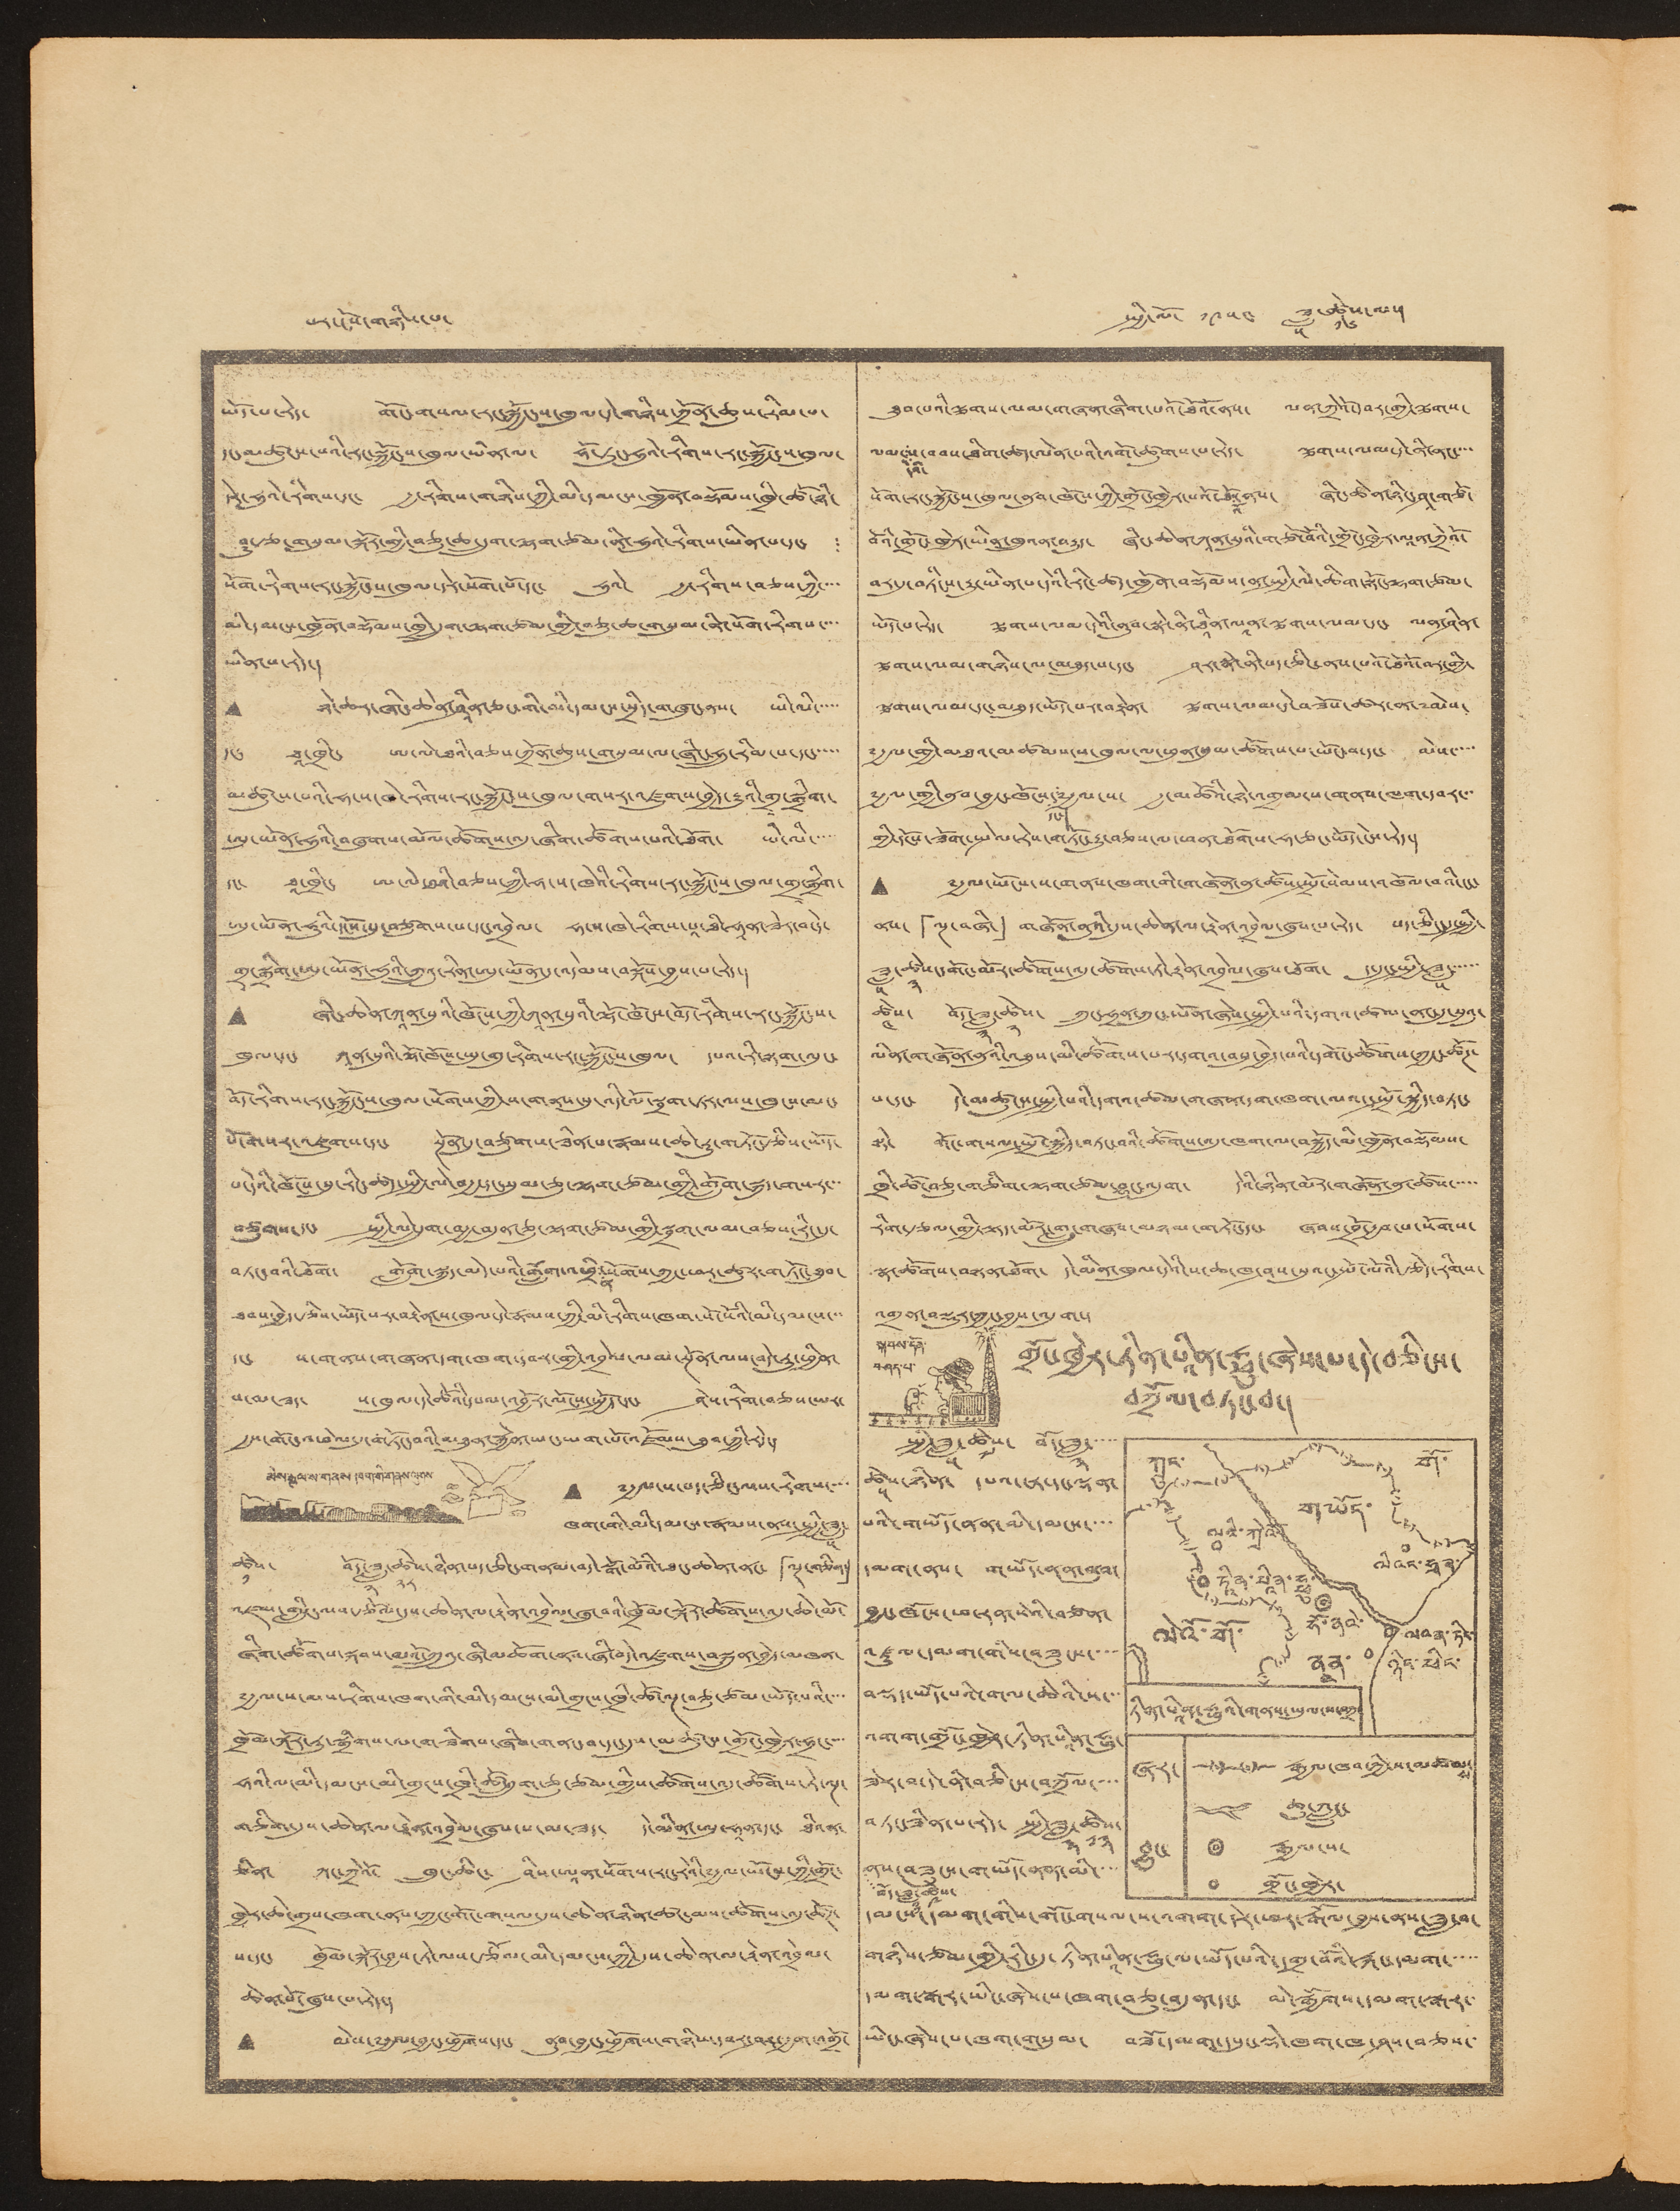པར་ངོས་གཉིས་པ་ སྤྱི་ལོ་ ༡༩༥༤ ཟླ་
༥
ཚེས་
༡༦
ལ་།
ཡོད་པ་རེད་ གོང་གསལ་རང་སྐྱོང་ས་ཁུལ་དེ་གཉིས་ཀྲོན་ཆུས་རིམ་པ་
དང་མཚུངས་པའི་རང་སྐྱོང་ས་ཁུལ་ཡིན་ལ་ ཧོ་ཏུང་ཧུའེ་
དེར་ཧུའེ་རིགས་དང་ རྒྱ་རིགས་གཉིས་ཀྱི་མི་དམངས་ཁྱོན་བསྡོམས་ཁྲི་ཚོ་ཉི་
ཤུ་རྩ་གསུམ་སྐོར་གྱི་བཅུ་ཆ་དྲུག་ལྷག་ཙམ་ནི་ཧུའེ་རིགས་ཡིན་པ་དང་ །
སོག་རིགས་རང་སྐྱོང་ས་ཁུལ་དེར་སོག་པོདང་ ཧུའེ་ རྒྱ་རིགས་བཅས་ཀྱི་་་་
མི་དམངས་ཁྱོན་བསྡོམས་ཁྲི་དྲུག་ལྷག་ཙམ་གྱི་བཅུ་ཆ་གསུམ་ནི་སོག་རིགས་་་་
ཡིན་པ་རེད་།
• ཉེ་ཆར་ཞིང་ཆེན་ཤཱིན་ཅང་གི་མི་དམངས་སྲིད་གཞུང་ནས་ ཡི་ལི་་་་་
དང་ ཐཱ་ཁྲིང་ ཨ་ལེ་ཐའི་བཅས་ཀྲོན་ཆུས་གསུམ་ལ་ཞིང་ཧྲུ་རིམ་པ་དང་་་་་
མཚུངས་པའི་ཧ་ས་ཁེ་རིགས་རང་སྐྱོང་ས་ཁུལ་གསར་འཛུགས་བྱེད་རྒྱུའི་གྲྭ་སྒྲིག་
ཨུ་ཡོན་ཧུའི་བཞུགས་མོལ་ཚོགས་འདུ་ཞིག་ཚོགས་པའི་ཐོག་ ཡེ་ལི་་་་་
དང་ ཐཱ་ཁྲིང་ ཨ་ལེ་ཐའི་བཅས་ཀྱི་ཧ་ས་ཁེའི་རིགས་རང་སྐྱོང་ས་ཁུལ་གྲྭ་སྒྲིག་
ཨུ་ཡོན་ཧུའི་དངོས་སུ་བཙུགས་པ་དང་འབྲེལ་ ཧ་ས་ཁེ་རིགས་པཱ་ཐི་ཧཱན་ཟེར་བ་དེ་
གྲྭ་སྒྲིག་ཨུ་ཡོན་ཧུའི་ཀྲུའུ་རིན་ཨུ་ཡོན་དུ་འདེབས་བསྐོས་བྱས་པ་རེད་།
• ཞིང་ཆེན་ཀཱན་སུའི་ཁོངས་ཀྱི་ཀཱན་སུའི་ལྷོ་ཁོངས་བོད་རིགས་རང་སྐྱོང་ས་
ཁུལ་དང་ ཀཱན་སུའི་ལྷོ་ཁོངས་གུ་རིགས་རང་སྐྱོང་ས་ཁུལ་ དཔའ་རི་སྟག་ལུང་
བོད་རིགས་རང་སྐྱོང་ས་ཁུལ་སོགས་ཀྱི་ས་གནས་སུ་འདི་ལོ་སྦྲག་ཏར་ལས་ཁུངས་མང་
པོ་གསར་འཛུགས་དང་ སྔོན་དུ་བཙུགས་ཟིན་པ་རྣམས་ཆེ་རུ་གཏོང་རྩིས་ཡོད་
པ་དེའི་ཁོངས་སུ་རིང་ཚད་སྤྱི་ལེ་བརྒྱ་དང་སུམ་ཅུ་ལྷག་ཙམ་གྱི་གློག་སྐུད་གསར་་་
བཙུགས་དང་ སྤྱི་ལེ་དྲུག་བརྒྱ་བདུན་ཅུ་ལྷག་ཙམ་གྱི་སྦྲག་ལམ་བཅས་རིང་དུ་
བཏང་བའི་ཐོག་ གློག་སྐུད་མེད་པའི་གློག་
ན
སོགས་ཀྱང་ཕར་ཚུར་གཏོང་ཐུབ་
ཐབས་བྱེད་རྩིས་ཡོད་པར་བརྟེན་ས་ཁུལ་དེ་རྣམས་ཀྱི་མི་རིགས་ཁག་སོ་སོའི་མི་དམངས་་་
དང་ ས་གནས་གཞན་དག་ཁག་དབར་གྱི་འབྲེལ་ལམ་སྔོན་ལས་བདེ་རུ་ཕྱིན་
པ་མ་ཟད་ ས་ཁུལ་དེ་ཚོའི་དཔལ་འབྱོར་ལོངས་སྤྱོད་དང་ ཤེས་རིག་བཅས་ཡར་
རྒྱས་གོང་འཕེལ་དུ་གཏོང་བའི་མཐུན་རྐྱེན་ཡང་ཡག་པོ་འཛོམས་ཐུབ་ཀྱི་རེད་།
མེས་རྒྱལ་ས་གནས་ཁག་གི་གནས་ལུགས་
• ༸རྒྱལ་ས་པད་ཅིང་ལས་རིགས་་་་
ཁག་གི་མི་དམངས་རྣམས་ནས་སྤྱི་ཟླ་
༥
ཚེས་
༡
བོད་ཟླ་
༢
ཚེས་
༢༨
ཉིན་པད་ཅིང་གནམ་བདེ་སྒོ་མོའི་ཐང་ཆེན་ནང་ 「ལྔ་གཅིག་」
འཛམ་གླིང་ལས་རྩོལ་དུས་ཆེན་ལ་རྟེན་འབྲེལ་ཞུ་བའི་ཁྲོམ་སྐོར་ཚོགས་འདུ་ཆེ་མོ་
ཞིག་ཚོགས་སྐབས་མའོ་ཀྲུའུ་ཞི་མཆོག་ནས་ཞི་བདེ་འཛུགས་བསྐྲུན་བྱེད་མཁན་
༸རྒྱལ་ས་ལས་རིགས་ཁག་གི་མི་དམངས་མི་གྲངས་ཁྲི་ཚོ་ལྔ་བཅུ་ཙམ་ཡོད་པའི་་་་
ཁྲོམ་སྐོར་རུ་སྒྲིགས་ལ་གཟིགས་ཞིབ་གནང་བ་དང་དུས་མཚུངས་གྲོང་ཁྱེར་ཧྲང་་་་
ཧའི་ལ་མི་དམངས་མི་གྲངས་ཁྲི་ཚོ་དྲུག་ཅུ་ཙམ་གྱིས་ཚོགས་འདུ་ཚོགས་ཏེ་ལྔ་
གཅིག་དུས་ཆེན་ལ་རྟེན་འབྲེལ་ཞུས་པ་མ་ཟད་ དེ་མིན་ཨུ་ཧཱན་དང་ ཐིའན་
ཅིན་ ཀང་ཀྲེའོ་ ཁྲུང་ཆིང་ ཤིས་ཨཱན་སོགས་རང་རེའི་༸རྒྱལ་ཡོངས་ཀྱི་གྲོང་
ཁྱེར་ཆེ་གྲས་ཁག་ནས་ཀྱང་གོང་གསལ་དུས་ཆེན་ཉིན་ཚང་མས་ཚོགས་འདུ་ཚོཊ་
པ་དང་ ཁྲོམ་སྐོར་བྱས་ཏེ་ལས་རྩོལ་མི་དམངས་ཀྱི་དུས་ཆེན་ལ་རྟེན་འབྲེལ་
ཆེན་པོ་ཞུས་པ་རེད་།
• མེས་༸རྒྱལ་བྱང་ཕྱོགས་དང་ ནུབ་བྱང་ཕྱོགས་གཉིས་བར་ཤར་རྒྱག་འགྲོ་
ཐུབ་པའི་ལྕགས་ལམ་གཞན་ཞིག་པའོ་ཐོའོ་ནས་ ལན་ཀྲེའོ་དབར་གྱི་ལྕགས་
ལམ་
དེའི་
ས་བབས་ཐིག་ཚད་ལེན་པའི་པའི་འགོ་ཚུགས་པ་རེད་ ལྕགས་ལམ་དེ་ནི་ནང་་་་
སོག་རང་སྐྱོང་ས་ཁུལ་ནུབ་ཁོངས་ཀྱི་གྲོང་ཁྱེར་པའོ་ཐོ་
འོ
ནས་ ཞིང་ཆེན་ཉིང་ཤཱག་གཙོ་
བོའི་གྲོང་ཁྱེར་ཡིན་ཁྲུའན་བརྒྱུད་ ཞིང་ཆེན་ཀཱན་སུའི་གཙོ་བོའི་གྲོང་ཁྱེར་ལཱན་ཀྲེའོ་
བར་དུ་བཏིངས་རྒྱུ་ཡིན་པ་དེའི་རིང་ཚད་ཁྱོན་བསྡོམས་ན་སྤྱི་ལེ་ཆིག་སྟོང་ལྷག་ཙམ་
ཡོད་པ་རེད་ ལྕགས་ལམ་དེའི་ནུབ་སྣེ་ཐཱིན་ལཱན་ལྕགས་ལམ་དང་ ལན་ཤིན་
ལྕགས་ལམ་གཉིས་ལ་མཐུད་པ་དང་ ཤར་སྣེ་ནི་པད་ཅིང་ནས་པའོ་ཐོའོ་བར་གྱི་
ལྕགས་ལམ་དང་མཐུད་ཡོད་པར་བརྟེན་ ལྕགས་ལམ་དེ་བཟོས་ཚར་ན་༸མེས་
༸རྒྱལ་གྱི་མཐའ་མཚམས་ས་ཁུལ་ལ་ཕུན་སུམ་ཚོགས་པ་ཡོང་བ་དང་ མེས་་་་་
༸རྒྱལ་གྱི་ནུབ་བྱང་ཁོངས་
དང་།
༸རྒྱལ་ས་ རྒྱ་མཚོའི་ཉེ་འགྲམ་ས་གནས་ཁག་དབར་་་
གྱི་དངོས་ཟོག་སྤེལ་རེས་གཏོང་རྒྱུ་བཅས་ལ་ཕན་ཐོགས་ཧ་ཅང་ཡོད་ངེས་རེད་།
• ༸རྒྱལ་ཡོངས་ས་གནས་ཁག་གི་གཞོན་ནུ་ཚོས་སྤྲོ་སེམས་འཁོལ་བའི་ངང་
ནས་ 「ལྔ་བཞི་」 གཞོན་ནུའི་དུས་ཆེན་ལ་རྟེན་འབྲེལ་ཞུས་པ་རེད་ པད་ཅིང་དུ་སྤྱི་
ཟླ་
༥
ཚེས་
༣
དགོང་མོར་ཚོགས་འདུ་ཚོགས་ཏེ་རྟེན་འབྲེལ་ཞུས་ཐོག་ ད་དུང་སྤྱི་ཟླ་་་་་་
༥
ཚེས་
༤
བོད་ཟླ་
༣
ཚེས་
༢
ཀྲུང་ཧྲན་ཀུང་ཡོན་ཞེས་སྤྱི་པའི་དགའ་ཚལ་ནང་དུ་སུའུ་
ལིན་གཞོན་ནུའི་འཐུས་མི་ཚོགས་པར་དགའ་བསུ་བྱེད་པའི་དགོང་ཚོགས་ཀྱང་ཚོཊ་
པ་དང་ དེ་མཚུངས་སྤྱི་པའི་དགའ་ཚལ་གཞན་དག་ཁག་ལའང་སྤྲོ་སྐྱིད་བཏང་
སྟེ་ གོང་གསལ་སྤྲོ་སྐྱིད་བཏང་བའི་ཚོགས་འདུ་ཁག་ལ་བསྐྱོད་མི་ཁྱོན་བསྡོམས་
ཁྲི་ཚོ་བཅུ་གཅིག་ལྷག་ཙམ་བྱུང་འདུག་ དེའི་ཉིན་མོར་གཞོན་ནུ་ཚོས་་་་་
རིག་རྩལ་གྱི་ལྟད་མོར་གླུ་གཞས་མཉམ་གཏོང་དང་ ཞབས་བྲོ་རྒྱབ་པ་སོགས་
སྣ་ཚོགས་བསྟན་ཐོག་ དེ་མིན་ཁུལ་དེའི་ས་ཆ་ཁ་ཤས་སུའང་སྤོ་ལོའི་རྩེད་རིགས་
འགྲན་བསྡུར་ཀྱང་བྱས་འདུག་།
སྐབས་དོན་
བཤད་པ་
གྲོང་ཁྱེར་ཏིན་པཱིན་ཧྥུ་ཞེས་པ་དེ་བཅིངས་
བཀྲོལ་བཏང་བ་།
སྤྱི་ཟླ་
༥
ཚེས་
༧
བོད་ཟླ་
༣
་་་་
ཚེས་
༥
ཉིན་ དཔའ་ངར་དང་ལྡན་
པའི་གཡོད་ནན་མི་དམངས་་་་
དམག་ནས་ གཡོད་ནན་ནུབ་
བྱང་ཁོངས་ཕ་རན་སེའི་བཙན་
འཛུལ་དམག་གིས་བཟུངས་་་་
བསྡད་ཡོད་པའི་གལ་ཆེའི་ས་་་
འགག་གྲོང་ཁྱེར་ཏིན་པཱིན་ཧྥུ་
ཟེར་བ་དེ་ནི་བཅིངས་བཀྲོལ་་་་
བཏང་ཟིན་པ་རེད་ སྤྱི་ཟླ་
༣
ཚེས་
༡༣
བོད་ཟླ་
༡༡
ཚེས་
༩
ནས་བཟུངས་གཡོད་ནན་མི་་་
དམངས་དམག་གིས་གོང་གསལ་ས་འགག་དེར་ཕར་རྒོལ་བྱས་ནས་ཟླ་བ་
གཉིས་ཙམ་གྱི་རིང་དུ་ཏིན་པཱིན་ཧྥུ་ལ་ཡོད་པའི་དགྲ་བོའི་རྐང་དམག་་་་་
དམག་སྒར་ཡིང་ཞེས་པ་ཁག་བཅུ་བདུན་དང་ མེས་སྒྱོགས་དམག་སྒར་
ཡིང་ཞེས་པ་ཁག་གསུམ་ བཟོ་དམག་དཔུང་སྡེ་ཁག་ཁ་ཤས་བཅས་་
ཀྲུང་གོ་
གཡོད་
ནཱན་
ལིའང་ཧྭན་
ལའི་ཀྭེའོ་
ཏཱིན་པཱིན་ཧྥུ་
ཧོ་ནའེ་
ལའན་ཏིང་
ཉིང་ཕིང་
ལེའོ་གོ་
ཏིན་པཱིན་ཧྥུའི་གནས་ཡུལ་ས་བཀྲ་
ཞར་
བྱུང་
རྒྱལ་ཁབ་ཀྱི་ས་མཚམས་
ཆུ་ཀླུང་
རྒྱལ་ས་
གྲོང་ཁྱེར་
